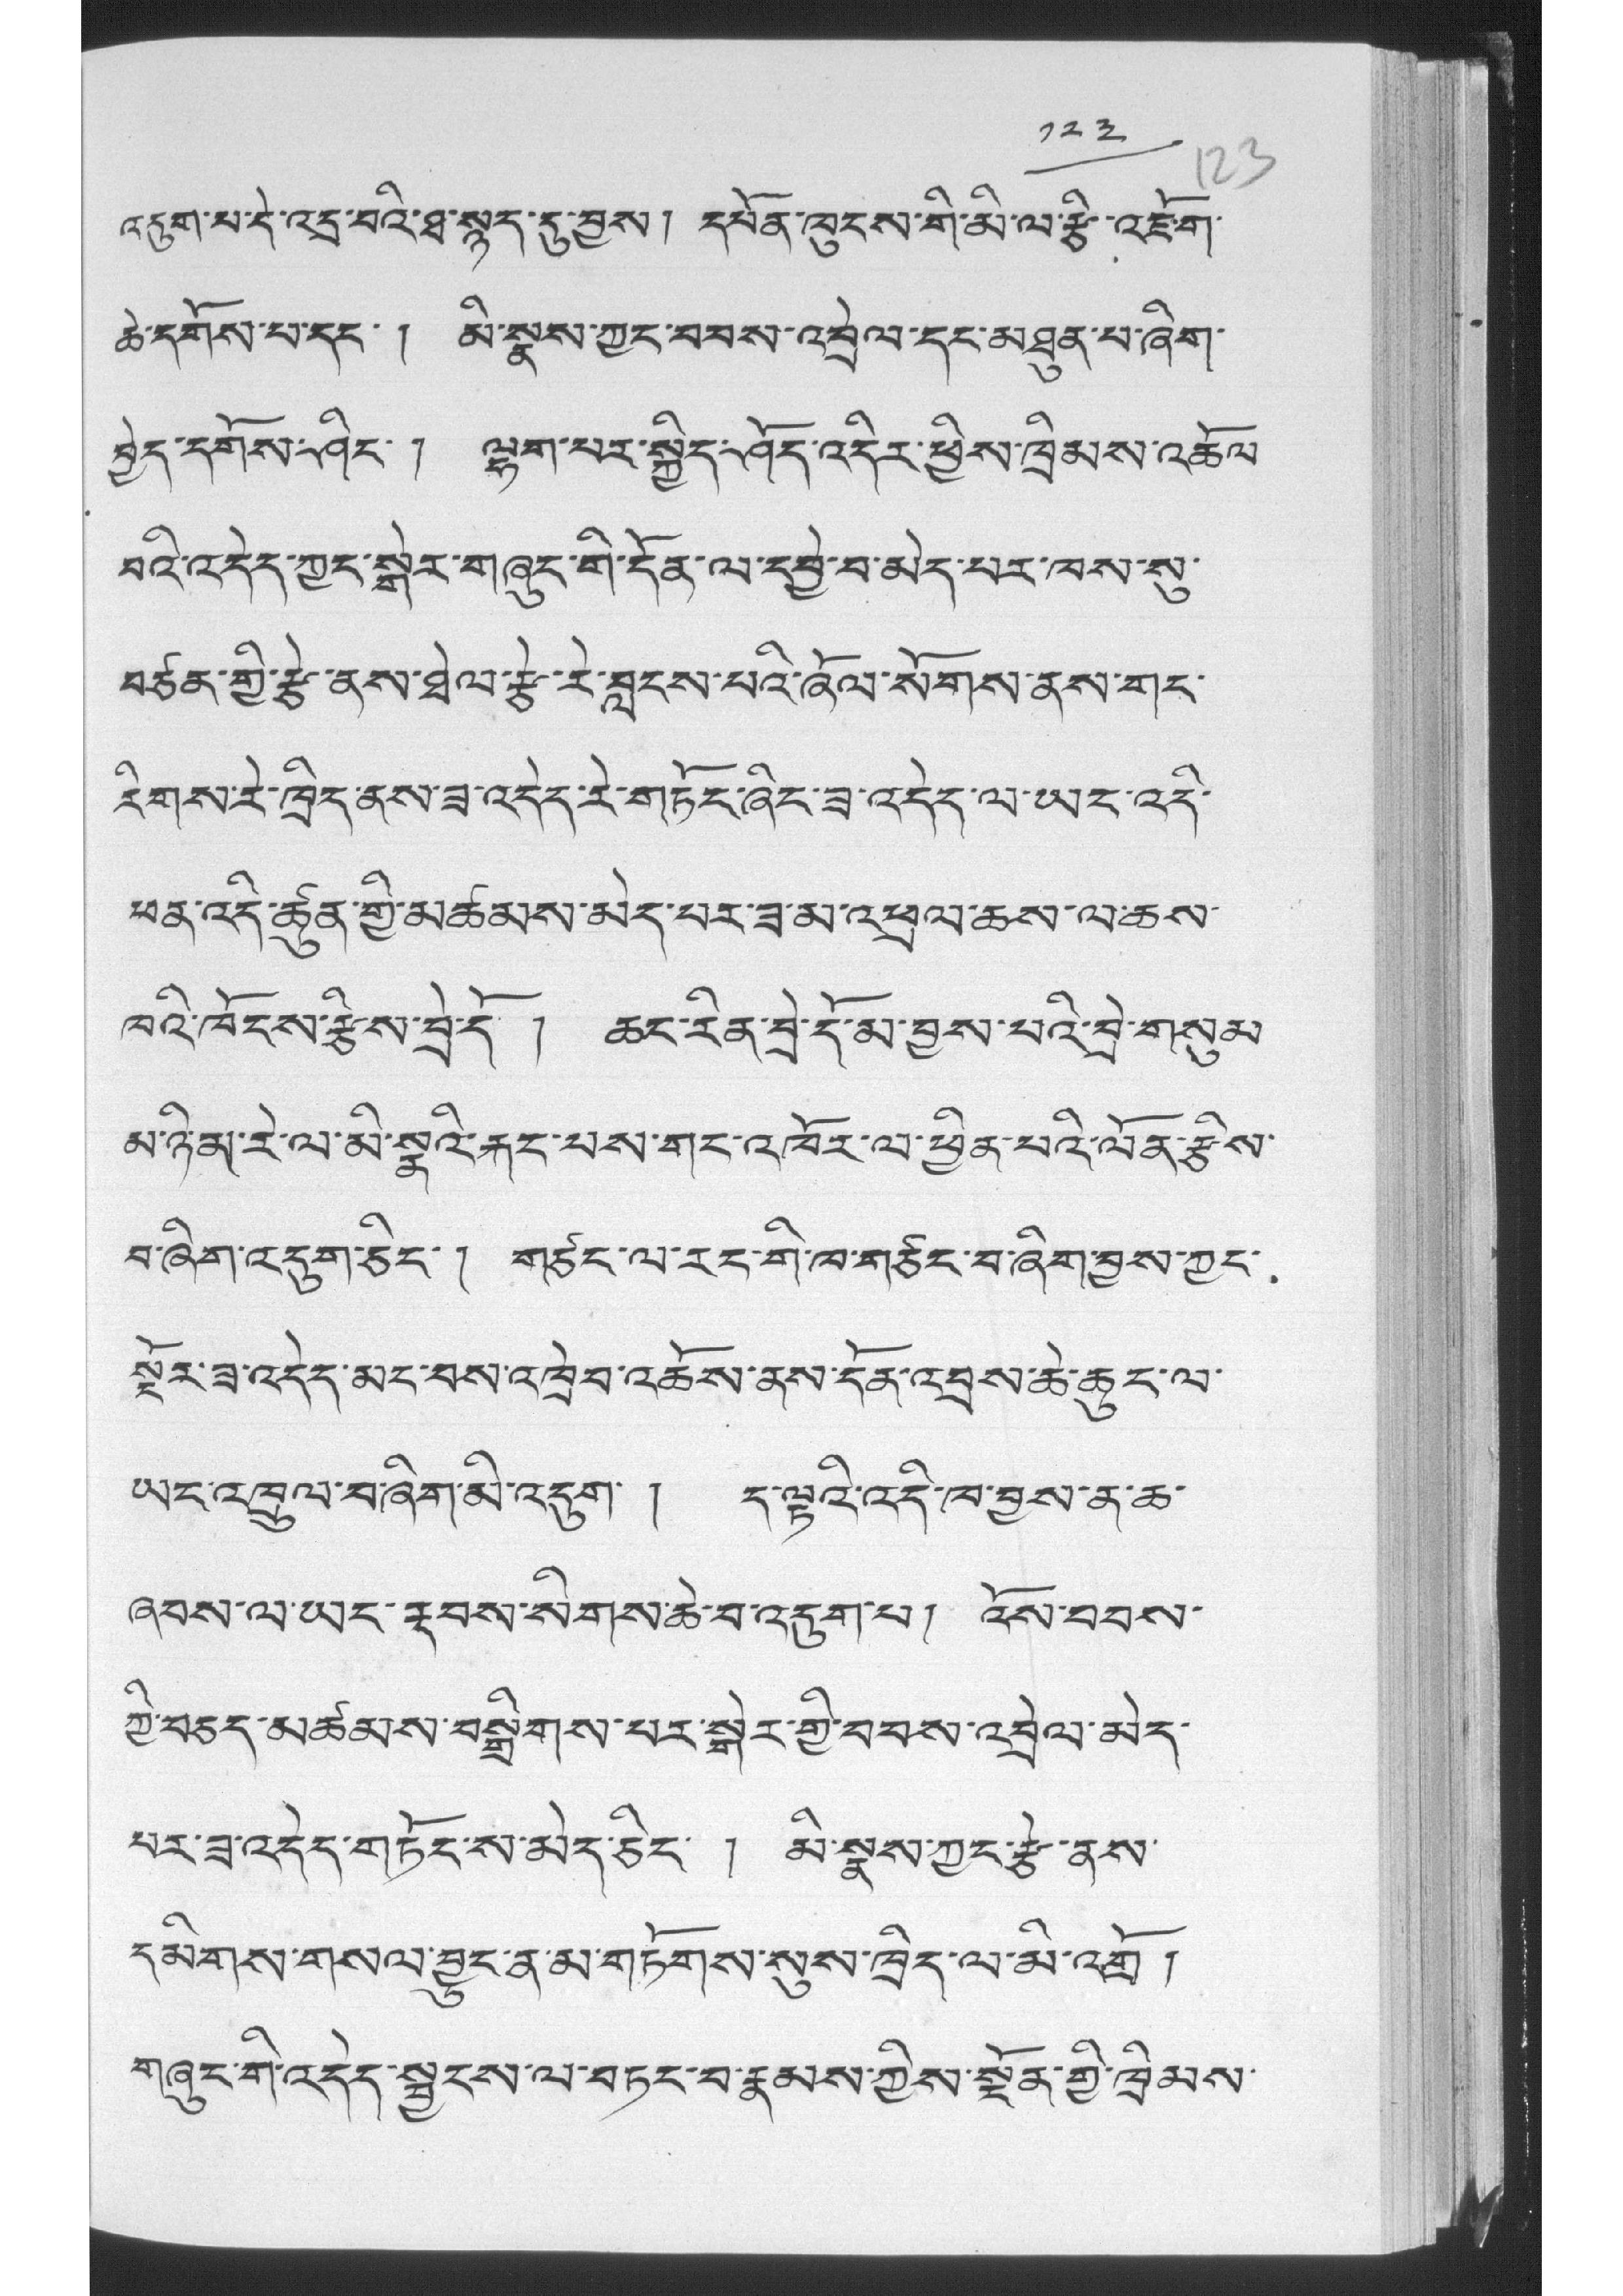༡༢༣
འདུག་པ་དེ་འདྲ་བའི་ཐ་སྙད་དུ་བྱས། དཔོན་ཁུངས་གི་མི་ལ་རྩི་འཇོག་
ཆེ་དགོས་པ་དང་ ། མི་སྣས་ཀྱང་བབས་འབྲེལ་དང་མཐུན་པ་ཞིག་
བྱེད་དགོས་ཤིང་ ། ལྷག་པར་སྐྱིད་ཤོད་འདིར་ཕྱིས་ཁྲིམས་འཆོལ་
བའི་འདེད་ཀྱང་སྒེར་གཞུང་གི་དོན་ལ་དབྱེ་བ་མེད་པར་ཁས་སུ་
བཙན་གྱི་རྩེ་ནས་ཐེལ་རྩེ་རེ་བླངས་པའི་ཞོལ་སོགས་ནས་གང་
རིགས་རེ་ཁྲིད་ནས་ཟ་འདེད་རེ་གཏོང་ཞིང་ཟ་འདེད་ལ་ཡང་འདི་
ཕན་འདི་ཚུན་གྱི་མཚམས་མེད་པར་ཟ་མ་འཕྲལ་ཆས་ལ་ཆས་
ཁའི་ཁོངས་རྩིས་བྲེ་དོ ། ཆང་རིན་བྲེ་དོ་མ་བྱས་པའི་བྲེ་གསུམ་
མ་ཉི་མ་རེ་ལ་མི་སྣའི་རྐང་པས་གང་འཁོར་ལ་ཕྱིན་པའི་ལོན་རྩིས་
བ་ཞིག་འདུག་ཅིང་ ། གཙང་ལ་རང་གི་ཁ་གཙང་བ་ཞིག་བྱས་ཀྱང་
སྔོར་ཟ་འདེད་མང་བས་འཁྲེབ་འཆོས་ནས་དོན་འབྲས་ཆེ་ཆུང་ལ་
ཡང་འཁྲུལ་བ་ཞིག་མི་འདུག་ ། ད་ལྟའི་འདི་ཁ་བྱས་ན་ཆ་
ཞབས་ལ་ཡང་རྡབས་སོགས་ཆེ་བ་འདུག་པ། འོས་བབས་
ཀྱི་བཅད་མཚམས་བསྒྲིགས་པར་སྒེར་གྱི་བབས་འབྲེལ་མེད་
པར་ཟ་འདེད་གཏོང་ས་མེད་ཅིང་ ། མ་སྣས་ཀྱང་རྩེ་ནས་
དམིགས་གསལ་བྱུང་ན་མ་གཏོགས་སུས་ཁྲིད་ལ་མ་འགྲོ །
གཞུང་གི་འདེད་སྦྱངས་ལ་བཏང་བ་རྣམས་ཀྱིས་སྔོན་གྱི་ཁྲིམས་
